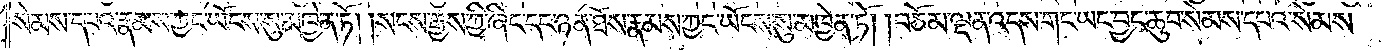སེམས་དཔའ་རྣམས་ཀྱང་ཡོངས་སུ་མཁྱེན་ཏོ། །སངས་རྒྱས་ཀྱི་ཞིང་དང་ཉན་ཐོས་རྣམས་ཀྱང་ཡོངས་སུ་མཁྱེན་ཏོ། །བཅོམ་ལྡན་འདས་གང་ཡང་བྱང་ཆུབ་སེམས་དཔའ་སེམས་
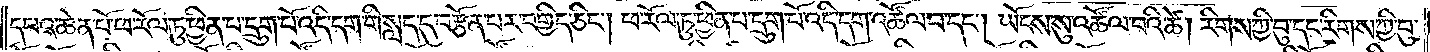དཔའ་ཆེན་པོ་ཕ་རོལ་ཏུ་ཕྱིན་པ་དྲུག་པོ་འདི་དག་གི་སླད་དུ་བརྩོན་པར་བགྱིད་ཅིང༌། ཕ་རོལ་ཏུ་ཕྱིན་པ་དྲུག་པོ་འདི་དག་འཚོལ་བ་དང༌། ཡོངས་སུ་འཚོལ་བའི་ཚེ། རིགས་ཀྱི་བུ་དང་རིགས་ཀྱི་བུ་
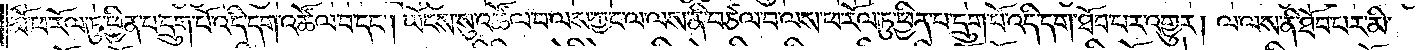མོ་ཕ་རོལ་ཏུ་ཕྱིན་པ་དྲུག་པོ་འདི་དག་འཚོལ་བ་དང༌། ཡོངས་སུ་འཚོལ་བ་ལས་ཀྱང་ལ་ལས་ནི་བཙལ་བ་ལས་ཕ་རོལ་ཏུ་ཕྱིན་པ་དྲུག་པོ་འདི་དག་ཐོབ་པར་འགྱུར། ལ་ལས་ནི་ཐོབ་པར་མི་
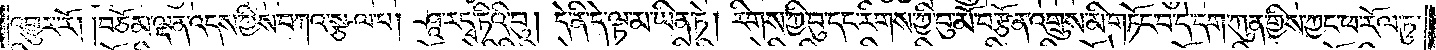འགྱུར་རོ། །བཅོམ་ལྡན་འདས་ཀྱིས་བཀའ་སྩལ་པ། ཤཱ་ར་དྭ་ཏིའི་བུ། དེ་ནི་དེ་ལྟ་མ་ཡིན་ཏེ། རིགས་ཀྱི་བུ་དང་རིགས་ཀྱི་བུ་མོ་བརྩོན་འགྲུས་མི་གཏོང་བ་དེ་དག་ཀུན་གྱིས་ཀྱང་ཕ་རོལ་ཏུ་
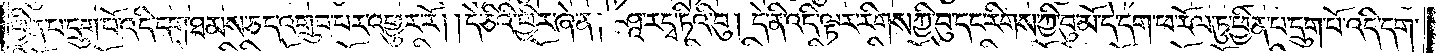ཕྱིན་པ་དྲུག་པོ་འདི་དག་ཐམས་ཅད་འགྲུབ་པར་འགྱུར་རོ། །དེ་ཅིའི་ཕྱིར་ཞེ་ན། ཤཱ་ར་དྭ་ཏིའི་བུ། དེ་ནི་འདི་ལྟར་རིགས་ཀྱི་བུ་དང་རིགས་ཀྱི་བུ་མོ་དེ་དག་ཕ་རོལ་ཏུ་ཕྱིན་པ་དྲུག་པོ་འདི་དག་
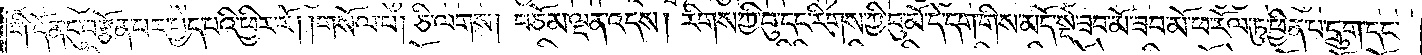གི་དོན་དུ་བརྩོན་པར་བྱེད་པའི་ཕྱིར་རོ། །གསོལ་པ། ཅི་ལགས། བཅོམ་ལྡན་འདས། རིགས་ཀྱི་བུ་དང་རིགས་ཀྱི་བུ་མོ་དེ་དག་གིས་མདོ་སྡེ་ཟབ་མོ་ཟབ་མོ་ཕ་རོལ་ཏུ་ཕྱིན་པ་དྲུག་དང་
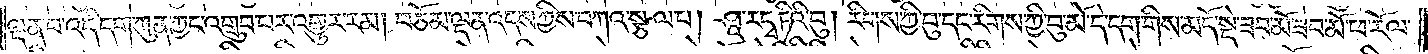ལྡན་པ་འདི་དག་ཀུན་ཀྱང་འགྲུབ་པར་འགྱུར་རམ། བཅོམ་ལྡན་འདས་ཀྱིས་བཀའ་སྩལ་པ། ཤཱ་ར་དྭ་ཏིའི་བུ། རིགས་ཀྱི་བུ་དང་རིགས་ཀྱི་བུ་མོ་དེ་དག་གིས་མདོ་སྡེ་ཟབ་མོ་ཟབ་མོ་ཕ་རོལ་
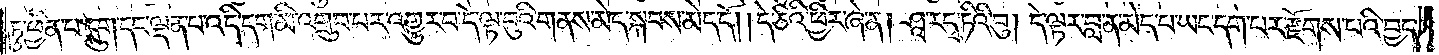ཏུ་ཕྱིན་པ་དྲུག་དང་ལྡན་པ་འདི་དག་མི་འགྲུབ་པར་འགྱུར་བ་དེ་ལྟ་བུའི་གནས་མེད་སྐབས་མེད་དོ། །དེ་ཅིའི་ཕྱིར་ཞེ་ན། ཤཱ་ར་དྭ་ཏིའི་བུ། དེ་ལྟར་བླ་ན་མེད་པ་ཡང་དག་པར་རྫོགས་པའི་བྱང་
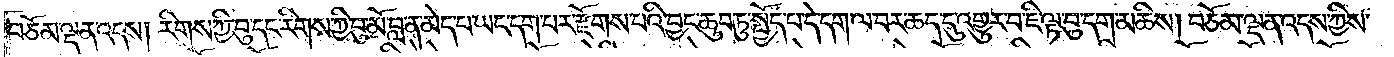བཅོམ་ལྡན་འདས། རིགས་ཀྱི་བུ་དང་རིགས་ཀྱི་བུ་མོ་བླ་ན་མེད་པ་ཡང་དག་པར་རྫོགས་པའི་བྱང་ཆུབ་ཏུ་སྤྱོད་པ་དེ་དག་ལ་བར་ཆད་དུ་འགྱུར་བ་ཇི་ལྟ་བུ་དག་མཆིས། བཅོམ་ལྡན་འདས་ཀྱིས་
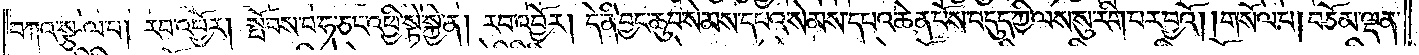བཀའ་སྩལ་པ། རབ་འབྱོར། སྤོབས་པ་ཧ་ཅང་འཕྱི་སྟེ་སྐྱེ་ན། རབ་འབྱོར། དེ་ནི་བྱང་ཆུབ་སེམས་དཔའ་སེམས་དཔའ་ཆེན་པོས་བདུད་ཀྱི་ལས་སུ་རིག་པར་བྱའོ། །གསོལ་པ། བཅོམ་ལྡན་
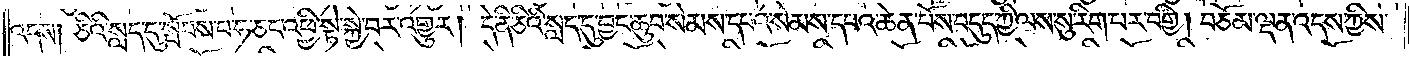འདས། ཅིའི་སླད་དུ་སྤོབས་པ་ཧ་ཅང་འཕྱི་སྟེ་སྐྱེ་བར་འགྱུར། དེ་ནི་ཅིའི་སླད་དུ་བྱང་ཆུབ་སེམས་དཔའ་སེམས་དཔའ་ཆེན་པོས་བདུད་ཀྱི་ལས་སུ་རིག་པར་བགྱི། བཅོམ་ལྡན་འདས་ཀྱིས་
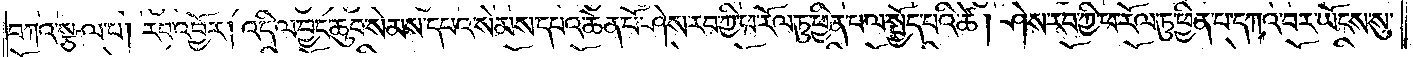བཀའ་སྩལ་པ། རབ་འབྱོར། འདི་ལ་བྱང་ཆུབ་སེམས་དཔའ་སེམས་དཔའ་ཆེན་པོ་ཤེས་རབ་ཀྱི་ཕ་རོལ་ཏུ་ཕྱིན་པ་ལ་སྤྱོད་བའི་ཚེ། ཤེས་རབ་ཀྱི་ཕ་རོལ་ཏུ་ཕྱིན་པ་དཀའ་བར་ཡོངས་སུ་
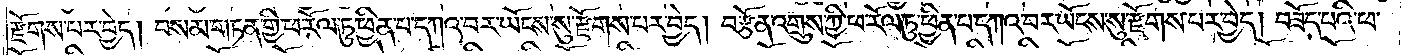རྫོགས་པར་བྱེད། བསམ་གཏན་གྱི་ཕ་རོལ་ཏུ་ཕྱིན་པ་དཀའ་བར་ཡོངས་སུ་རྫོགས་པར་བྱེད། བརྩོན་འགྲུས་ཀྱི་ཕ་རོལ་ཏུ་ཕྱིན་པ་དཀའ་བར་ཡོངས་སུ་རྫོགས་པར་བྱེད། བཟོད་པའི་ཕ་
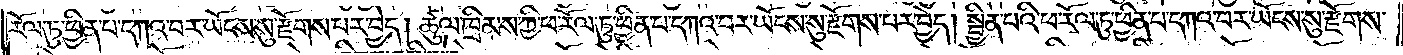རོལ་ཏུ་ཕྱིན་པ་དཀའ་བར་ཡོངས་སུ་རྫོགས་པར་བྱེད། ཚུལ་ཁྲིམས་ཀྱི་ཕ་རོལ་ཏུ་ཕྱིན་པ་དཀའ་བར་ཡོངས་སུ་རྫོགས་པར་བྱེད། སྦྱིན་པའི་ཕ་རོལ་ཏུ་ཕྱིན་པ་དཀའ་བར་ཡོངས་སུ་རྫོགས་
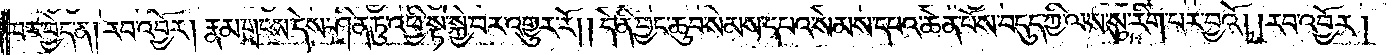པར་བྱེད་ན། རབ་འབྱོར། རྣམ་གྲངས་དེས་ཤིན་ཏུ་འཕྱི་སྟེ་སྐྱེ་བར་འགྱུར་རོ། །དེ་ནི་བྱང་ཆུབ་སེམས་དཔའ་སེམས་དཔའ་ཆེན་པོས་བདུད་ཀྱི་ལས་སུ་རིག་པར་བྱའོ། །རབ་འབྱོར།
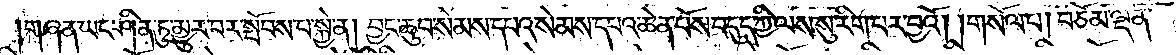གཞན་ཡང་ཤིན་ཏུ་མྱུར་བར་སྤོབས་པ་སྐྱེ་ན། བྱང་ཆུབ་སེམས་དཔའ་སེམས་དཔའ་ཆེན་པོས་བདུད་ཀྱི་ལས་སུ་རིག་པར་བྱའོ། །གསོལ་པ། བཅོམ་ལྡན་
